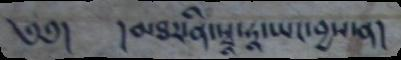༄༅། །མཐར་ནི་སྭཱ་ཧཱ་ཡང་བྱས་ན།
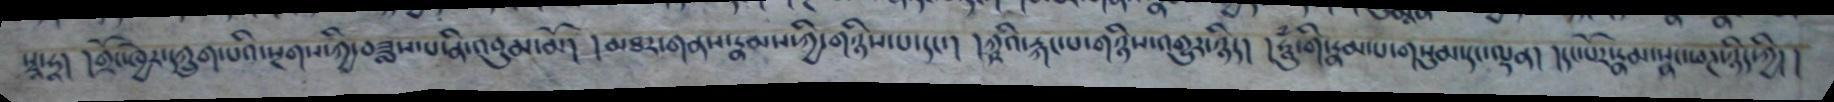སྭཱ་ཧཱ། །གྲོང་ཁྱེར་དཀྲུག་པའི་སྔགས་ཀྱི་བཟླས་པ་ནི་འབུམ་མོ། །མཐར་གནས་རྣམས་ཀྱི་གཉིས་པ་དང་། །ཀྵའི་རྐང་པ་གཉིས་འགྱུར་ཉིད། །ཧཱུཾ་གི་རྣམ་པ་གསུམ་དང་ལྡན། །དང་པོར་རྣམ་སྣང་ཕཊ་ཉིད་ཀྱི། །
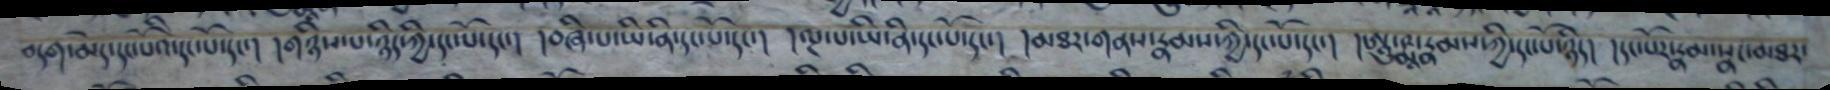བདག་མེད་པ་དང་པོའི་དང་པོ་དང་། །གཉིས་པ་ཉིད་ཀྱི་དང་པོ་དང་། །བཞི་པ་ཡི་ནི་དང་པོ་དང་། །ལྔ་པ་ཡི་ནི་དང་པོ་དང་། །མཐར་གནས་རྣམས་ཀྱི་དང་པོ་དང་། །ཨཱུ་ཥྨཱ་རྣམས་ཀྱི་དང་པོ་ཉིད། །དང་པོར་རྣམ་སྣང་མཐར་
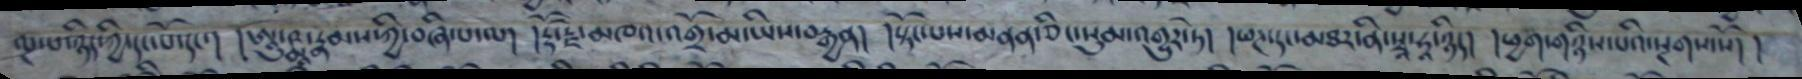ལྔ་པ་ཉིད་ཀྱི་དང་པོ་དང་། ཨཱུ་ཥྨཱ་རྣམས་ཀྱི་བཞི་པ་ལ། །རྡོ་རྗེ་མཁའ་འགྲོ་མ་ཡིས་བརྒྱན། །སྟོང་པས་མནན་ཅིང་སུམ་འགྱུར་ཏེ། །ཕཊ་དངམཐར་ནི་སྭཱ་ཧཱ་ཉིད། །ཕྱག་གཉིས་པའི་སྔགས་སོ། །
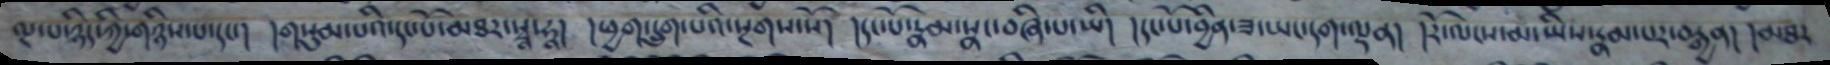ལྔ་པ་ཉིད་ཀྱི་གཉིས་པ་དང་། །གསུམ་པའི་དང་པོ་མཐར་སྭཱ་ཧཱ། །ཕྱག་དྲུག་པའི་སྔགས་སོ། །དང་པོ་རྣམ་སྣང་བཞི་པ་ཡི། །དང་པོ་བྱིན་ཟ་ཡང་དག་ལྡན། །རོ་ལངས་མ་ཡིས་རྣམ་པར་བརྒྱན། །མཐར
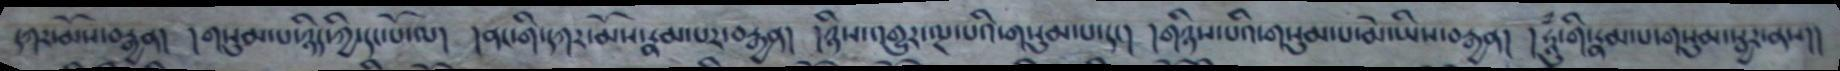དཀར་མོས་བརྒྱན། གསུམ་པ་ཉིད་ཀྱི་དང་པོ་ལ། །ནང་གི་དཀར་མོས་རྣམ་པར་བརྒྱན། །ཉིས་འགྱུར་ལྔ་པའི་གསུམ་པ་དང་། །གཉིས་པའི་གསུམ་པ་མེ་ཡིས་བརྒྱན། །ཧཱུཾ་གི་རྣམ་པ་གསུམ་སྦྱར་ནས།།
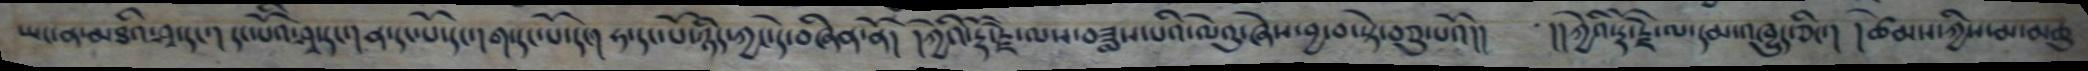ཡང་ན་མཐའི་ཤྭ་དང་། དང་པོའི་ཤྭ་དང་། ན་དང་པོ་དང་དག་དང་པོ་དང་། ཧ་དང་པོ་ཉིད་ཀྱང་དེ་བཞིན་ནོ། །ཀྱེའི་རྡོ་རྗེ་ལས་བཟླས་པའི་ལེའུ་ཞེས་བྱ་བ་སྟེ་བཅུ་པའོ།། །།ཀྱེའི་རྡོ་རྗེ་ལ་དམ་འཁྱུད་ཅིང་། །ཚེམས་ཀྱིས་མ་མཆུ
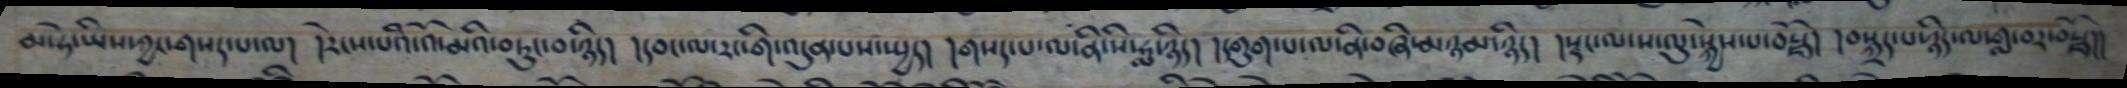མ་ཧེ་ཡིས་ཀྱང་གསད་པ་ལ། །རེངས་པའི་འོ་མའི་བཏུང་བ་ཉིད། །དབང་ལ་རང་གི་འདུན་པས་སྤྱད། །གསད་པ་ལ་ནི་སི་ཧླ་ཉིད། །དགུག་པ་ལ་ནི་བཞི་མཉམ་ཉིད། །སྡང་ལ་ས་ལུ་སྐྱེས་པ་བརྗོད། །བསྐྲད་པ་ཉིད་ལ་གླ་བར་བརྗོད།།
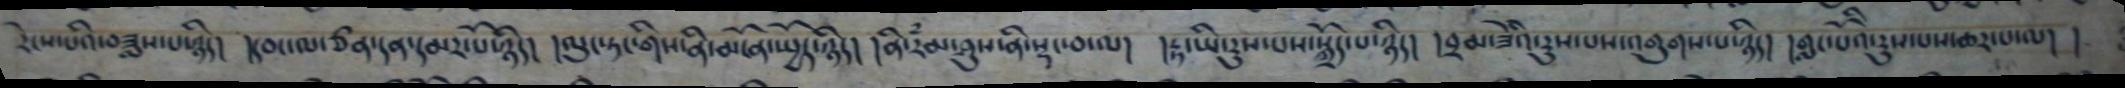རེངས་པའི་བཟླས་པ་ཉིད། །དབང་ལ་ཙན་དན་དམར་པོ་ཉིད། །ལུང་ཏང་གིས་ནི་མངོན་སྤྱོད་ཉིད། །ནི་རཾམ་ཤུས་ནི་སྡང་བ་ལ། །རྡ་ཡི་རུས་པས་སྐྲོད་པ་ཉིད། །བྲམ་ཟེའི་རུས་པས་འགུགས་པ་ཉིད། །གླང་པོའི་རུས་པས་ཆར་པ་ལ། །
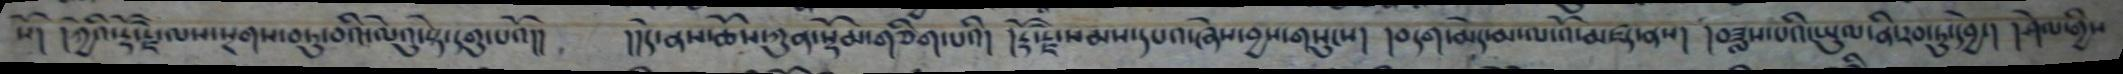སོ། །ཀྱེའི་རྡོ་རྗེ་ལས་སྔགས་བཏུ་བའི་ལེའུ་སྟེ་དགུ་པའོ།།  །།དེ་ནས་ཆོས་ཀུན་སྡོམ་གཅིག་པའི། །རྡོ་རྗེ་སེམས་དཔའ་ཞེས་བྱས་གསུངས། །བདག་མེད་མ་ལ་འོ་མཛད་ནས། །བཟླས་པའི་ཡུལ་ནི་རབ་ཏུ་དབྱེ་། །ཤེལ་གྱིས
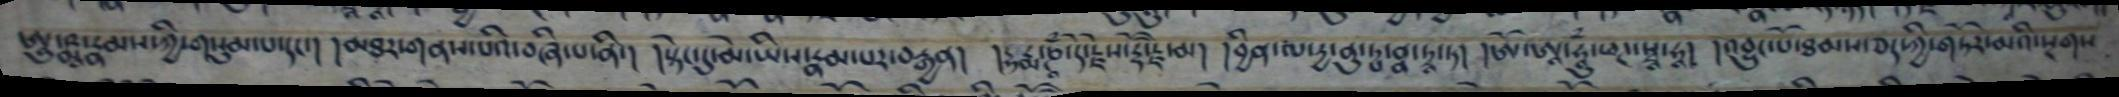ཨཱུ་ཥྨཱ་རྣམས་ཀྱི་གསུམ་པ་དང་། །མཐར་གནས་པའི་བཞི་པ་ནི། །སྟེང་དུ་མེ་ཡིས་རྣམ་པར་བརྒྱན། དྷརྨ་ཎཱཾ་དེ་རྗེས་རྡོ་རྗེ་མ། །བྱིན་ལ་རྱ་ནུ་ཏྤ་ནྣ་ཏྭཱ་ཏ། །ཨོ་ཨཱ་ཧཱུཾ་ཕཊ་སྭཱ་ཧཱ། །འབྱུང་པོ་ཐམས་ཅད་ཀྱི་གཏོར་མའི་སྔགས
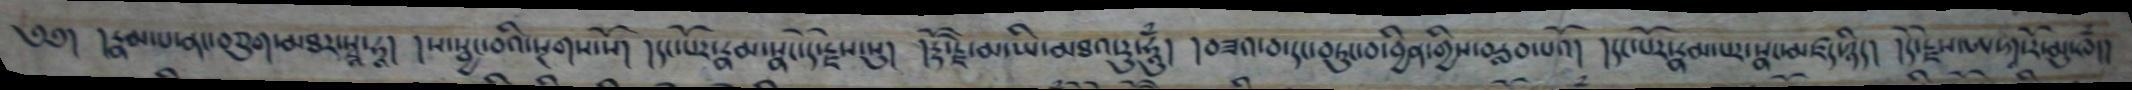༄༅། །རྣམ་པ་ནང་བཅུག་མཐར་སྭཱ་ཧཱ། །ས་སྦྱང་བའི་སྔགས་སོ། །དང་པོར་རྣམ་སྣང་དེ་རྗེས་སུ། །རྡོ་རྗེ་མ་ཡི་མཐར་རུ་ཧཱུཾ། །བཟའ་བ་དང་བཏུང་བ་བྱིན་གྱིས་བརླབ་པའོ། །དང་པོར་རྣམ་པར་སྣང་མཛད་ཉིད། །དེ་རྗེས་ཨ་ཀཱ་རོ་མུ་ཁཾ།།
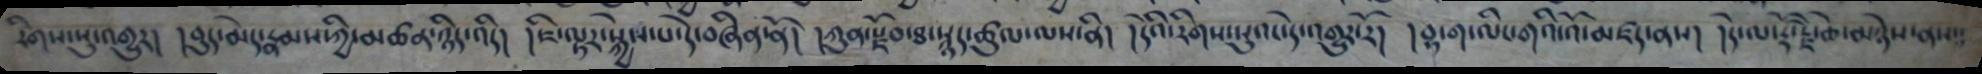རིགས་སུ་འགྱུར། །བུད་མེད་རྣམས་ཀྱི་མཚན་ཉིད་འདི། །ཇི་ལྟར་སྐྱེས་པ་དེ་བཞིན་ནོ། །ཀུན་སྫོབ་ཐ་སྙད་ཚུལ་ལས་ནི། །དེའི་རིགས་སུའང་དེ་འགྱུར་རོ། །བྷ་ག་ལིང་གའི་འོ་མཛད་ནས། །དེ་ལ་རྡོ་རྗེ་ཆེ་མཉེས་ནས༴
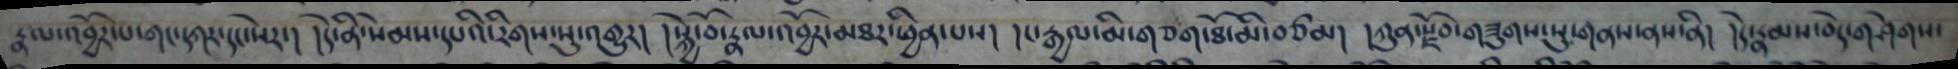རྣལ་འབྱོར་པ་གང་དཀར་དང་སེར་། །དེ་ནི་སེམས་དཔའི་རིགས་སུ་འགྱུར། །སྐྱེ་བོ་རྣལ་འབྱོར་མཐར་ཕྱིན་པས། །ང་རྒྱལ་མི་གཅིག་ཐོ་མི་བཙམ། །ཀུན་སྫོབ་གཟུགས་སུ་གནས་ནས་ནི། །དེ་རྣམས་བདེ་གཤེགས་
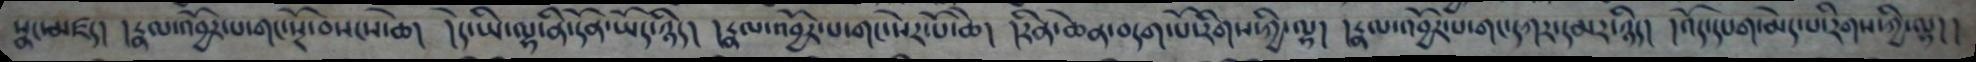སྣང་མཛད། །རྣལ་འབྱོར་པ་གང་སྔོ་བསངས་ཆེ། །དེ་ཡི་ལྷ་ནི་དོན་ཡོད་ཉིད། །རྣལ་འབྱོར་པ་གང་སེར་པོ་ཆེ། །རིན་ཆེན་བདག་པོ་རིགས་ཀྱི་ལྷ། །རྣལ་འབྱོར་པ་གང་དཀར་དམར་ཉིད། །འོད་དཔག་མེད་པ་རིགས་ཀྱི་ལྷ།།
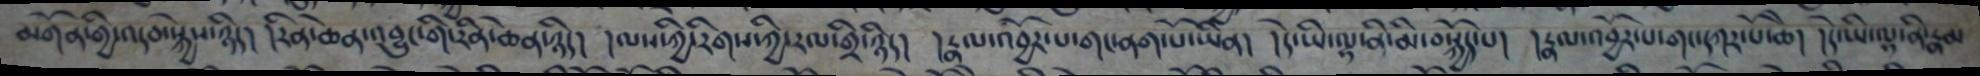མགོན་གྱི་འདབ་སྐྱེས་ཉིད། །རིན་ཆེན་འབྱུང་གི་རིན་ཆེན་ཉིད། །ལས་ཀྱི་རིགས་ཀྱི་རལ་གྲི་ཉིད། །རྣལ་འབྱོར་པ་གང་ནག་པོ་ཡིན། །དེ་ཡི་ལྷ་ནི་མི་བསྐྱོད་པ། །རྣལ་འབྱོར་པ་གང་དཀར་པོ་ཆེ། །དེ་ཡི་ལྷ་ནི་རྣམ
